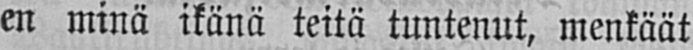en minä ikänä teitä tuntenut, menkäät
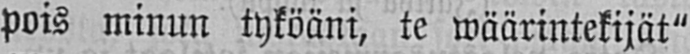pois minun tyköäni, te wäärintekijät"
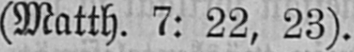(Matth. 7: 22, 23).
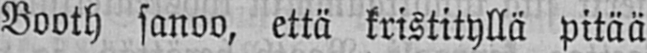Booth sanoo, että kristityllä pitää
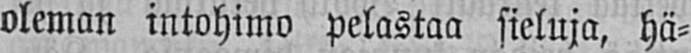oleman intohimo pelastaa sieluja, hä-
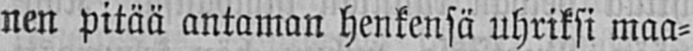nen pitää antaman henkensä uhriksi maa-
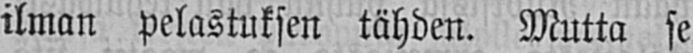ilman pelastuksen tähden. Mutta se
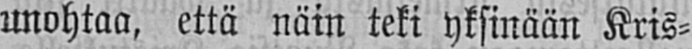unohtaa, että näin teki yksinään Kris-
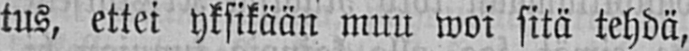tus, ettei yksikään muu woi sitä tehdä,
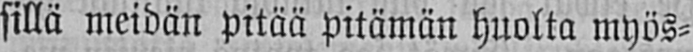sillä meidän pitää pitämän huolta myös-
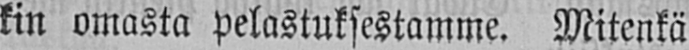kin omasta pelastuksestamme. Mitenkä
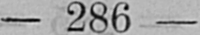— 286 —
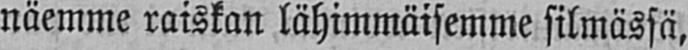näemme raiskan lähimmäisemme silmässä,
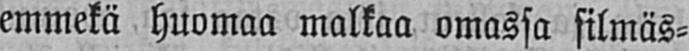emmekä huomaa malkaa omassa silmäs-
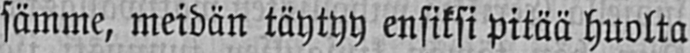sämme, meidän täytyy ensiksi pitää huolta
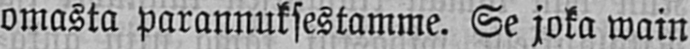omasta parannuksestamme. Se joka wain
